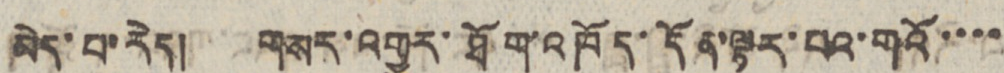མེད་པ་རེད། གསར་འགྱུར་ཐོག་འཁོད་དོན་ལྟར་པའ་གོའ་་་་
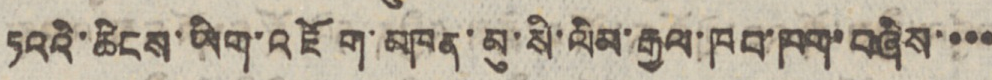ཏའའི་ཆིངས་ཡིག་འཇོག་མཁན་མུ་སི་ལིམ་རྒྱལ་ཁབ་ཁག་བཞིས་་་་
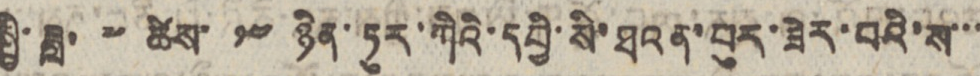སྤྱི་ཟླ་ ༧ ཚེས་ ༡༤ ཉིན་ཏུར་ཀིའི་དབྱི་སི་ཐའན་བུར་ཟེར་བའི་ས་་་
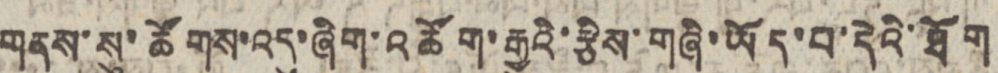གནས་སུ་ཚོགས་འདུ་ཞིག་འཚོག་རྒྱུའི་རྩིས་གཞི་ཡོད་པ་དེའི་ཐོག
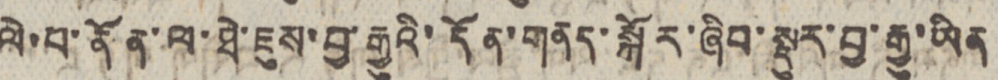ལེ་པ་ནོན་ལ་ཐེ་ཇུས་བྱ་རྒྱུའི་དོན་གནད་སྐོར་ཞིབ་སྡུར་བྱ་རྒྱུ་ཡིན
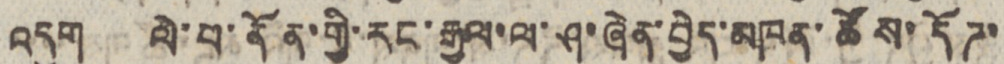འདུག ལེ་པ་ནོན་གྱི་རང་རྒྱལ་ལ་ཤ་ཞེན་བྱེད་མཁན་ཚོས་དོཊ་
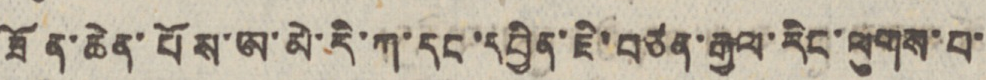ཟོན་ཆེན་པོས་ཨ་མེ་རི་ཀ་དང་དབྱིན་ཇི་བཙན་རྒྱལ་རིང་ལུགས་པ་
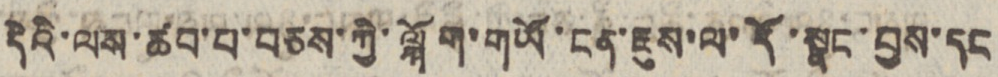དེའི་ལས་ཚབ་པ་བཅས་ཀྱི་ལྐོག་གཡོ་ངན་ཇུས་ལ་དོ་སྣང་བྱས་དང
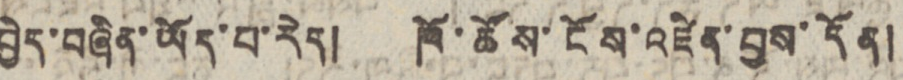བྱེད་བཞིན་ཡོད་པ་རེད། ཁོ་ཚོས་ངོས་འཛིན་བྱས་དོན།
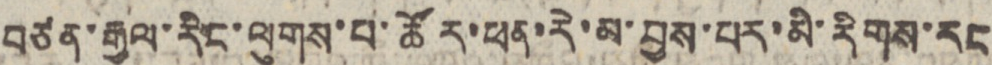བཙན་རྒྱལ་རིང་ལུགས་པ་ཚོར་ཕན་རེ་མ་བྱས་པར་མི་རིགས་རང
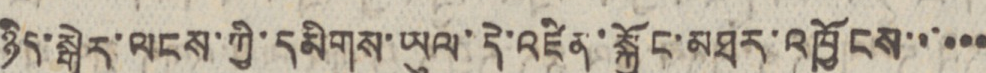ཉིད་སྒེར་ལངས་ཀྱི་དམིགས་ཡུལ་དེ་འཛིན་སྐྱོང་མཐར་འཁྱོངས་་་་་་
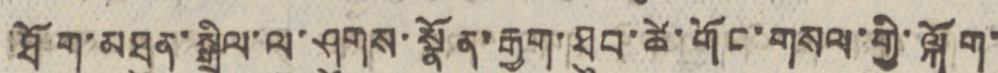ཐོག་མཐུན་སྒྲིལ་ལ་ཤུགས་སྣོན་རྒྱག་ཐུབ་ཚེ་གོང་གསལ་གྱི་ལྐོག་
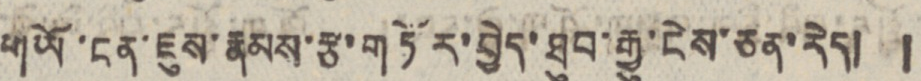གཡོ་ངན་ཇུས་རྣམས་རྩ་གཏོར་བྱེད་ཐུབ་རྒྱུ་ངེས་ཅན་རེད། །
